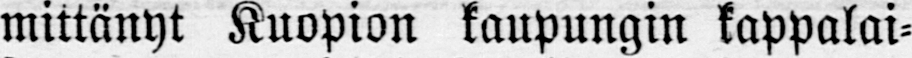mittänyt Kuopion kaupungin kappalai-
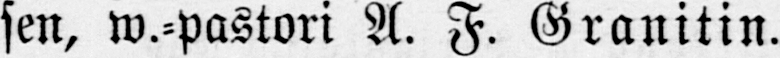sen, w.-pastori A. F. Granitin.
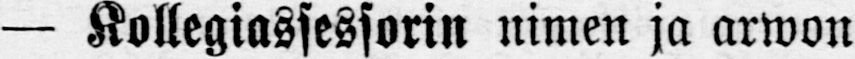— Kollegiassessorin nimen ja arwon
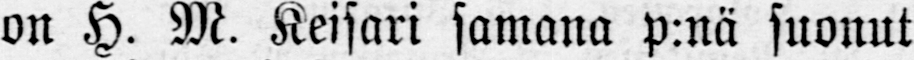on H. M. Keisari samana p:nä suonut
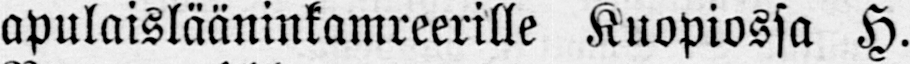apulaislääninkamreerille Kuopiossa H.
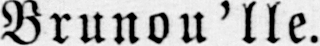Brunou'lle.
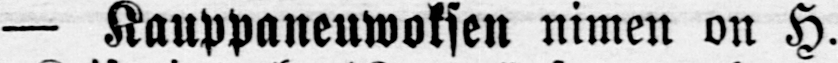— Kauppaneuwoksen nimen on H.
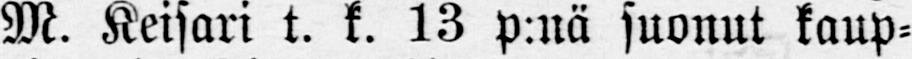M. Keisari t. k. 13 p:nä suonut kaup-
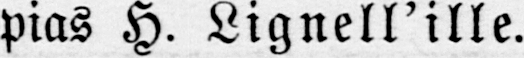pias H. Lignell'ille.
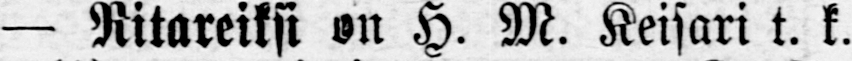— Ritareiksi on H. M. Keisari t. k.
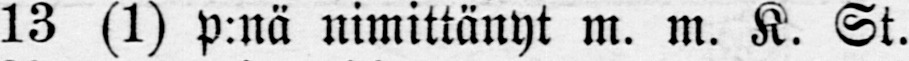13 (1) p:nä nimittänyt m. m. K. St.
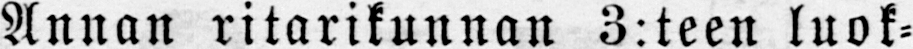Annan ritarikunnan 3:teen luok-
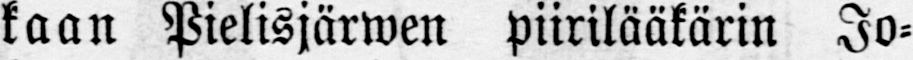kaan Pielisjärwen piirilääkärin Jo-
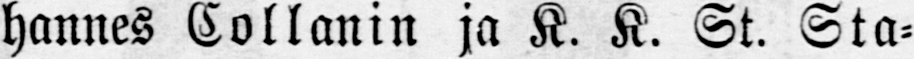hannes Collanin ja K. K. St. Sta-
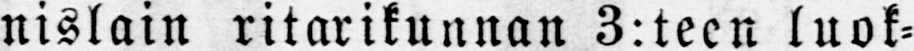nislain ritarikunnan 3:teen luok-
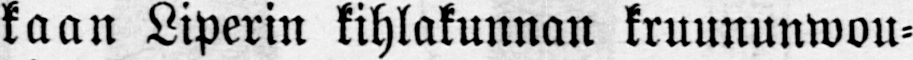kaan Liperin kihlakunnan kruununwou-
